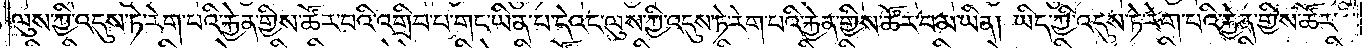ལུས་ཀྱི་འདུས་ཏེ་རེག་པའི་རྐྱེན་གྱིས་ཚོར་བའི་འགྲིབ་པ་གང་ཡིན་པ་དེའང་ལུས་ཀྱི་འདུས་ཏེ་རེག་པའི་རྐྱེན་གྱིས་ཚོར་བ་མ་ཡིན། ཡིད་ཀྱི་འདུས་ཏེ་རེག་པའི་རྐྱེན་གྱིས་ཚོར་
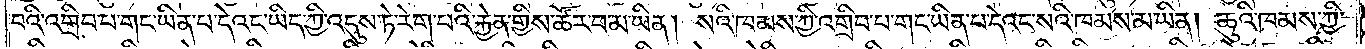བའི་འགྲིབ་པ་གང་ཡིན་པ་དེའང་ཡིད་ཀྱི་འདུས་ཏེ་རེག་པའི་རྐྱེན་གྱིས་ཚོར་བ་མ་ཡིན། སའི་ཁམས་ཀྱི་འགྲིབ་པ་གང་ཡིན་པ་དེའང་སའི་ཁམས་མ་ཡིན། ཆུའི་ཁམས་ཀྱི་
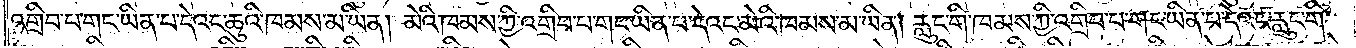འགྲིབ་པ་གང་ཡིན་པ་དེའང་ཆུའི་ཁམས་མ་ཡིན། མེའི་ཁམས་ཀྱི་འགྲིབ་པ་གང་ཡིན་པ་དེའང་མེའི་ཁམས་མ་ཡིན། རླུང་གི་ཁམས་ཀྱི་འགྲིབ་པ་གང་ཡིན་པ་དེའང་རླུང་གི་
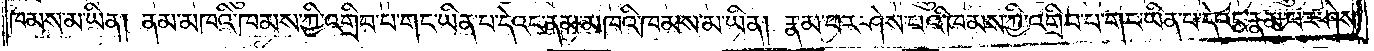ཁམས་མ་ཡིན། ནམ་མཁའི་ཁམས་ཀྱི་འགྲིབ་པ་གང་ཡིན་པ་དེའང་ནམ་མཁའི་ཁམས་མ་ཡིན། རྣམ་པར་ཤེས་པའི་ཁམས་ཀྱི་འགྲིབ་པ་གང་ཡིན་པ་དེའང་རྣམ་པར་ཤེས་
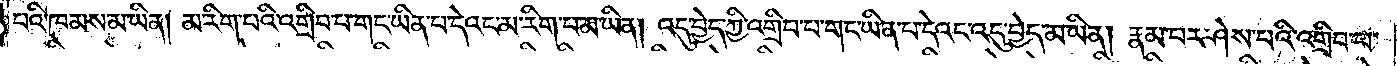པའི་ཁམས་མ་ཡིན། མ་རིག་པའི་འགྲིབ་པ་གང་ཡིན་པ་དེའང་མ་རིག་པ་མ་ཡིན། འདུ་བྱེད་ཀྱི་འགྲིབ་པ་གང་ཡིན་པ་དེའང་འདུ་བྱེད་མ་ཡིན། རྣམ་པར་ཤེས་པའི་འགྲིབ་པ་
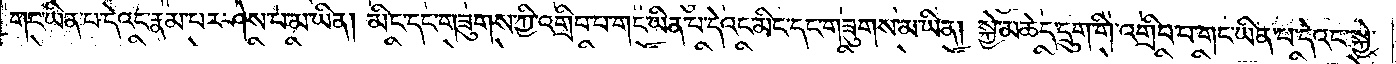གང་ཡིན་པ་དེའང་རྣམ་པར་ཤེས་པ་མ་ཡིན། མིང་དང་གཟུགས་ཀྱི་འགྲིབ་པ་གང་ཡིན་པ་དེའང་མིང་དང་གཟུགས་མ་ཡིན། སྐྱེ་མཆེད་དྲུག་གི་འགྲིབ་པ་གང་ཡིན་པ་དེའང་སྐྱེ་
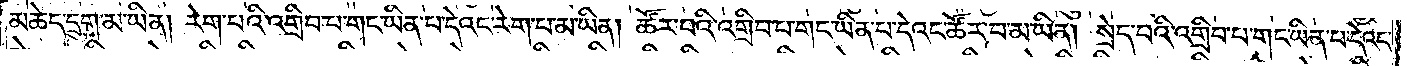མཆེད་དྲུག་མ་ཡིན། རེག་པའི་འགྲིབ་པ་གང་ཡིན་པ་དེའང་རེག་པ་མ་ཡིན། ཚོར་བའི་འགྲིབ་པ་གང་ཡིན་པ་དེའང་ཚོར་བ་མ་ཡིན། སྲེད་པའི་འགྲིབ་པ་གང་ཡིན་པ་དེའང་
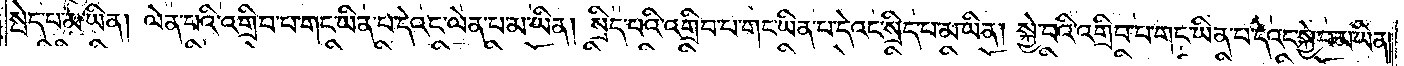སྲེད་པ་མ་ཡིན། ལེན་པའི་འགྲིབ་པ་གང་ཡིན་པ་དེའང་ལེན་པ་མ་ཡིན། སྲིད་པའི་འགྲིབ་པ་གང་ཡིན་པ་དེའང་སྲིད་པ་མ་ཡིན། སྐྱེ་བའི་འགྲིབ་པ་གང་ཡིན་པ་དེའང་སྐྱེ་བ་མ་ཡིན།
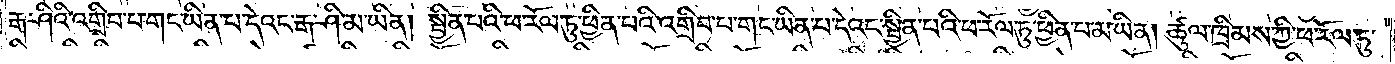རྒ་ཤིའི་འགྲིབ་པ་གང་ཡིན་པ་དེའང་རྒ་ཤི་མ་ཡིན། སྦྱིན་པའི་ཕ་རོལ་ཏུ་ཕྱིན་པའི་འགྲིབ་པ་གང་ཡིན་པ་དེའང་སྦྱིན་པའི་ཕ་རོལ་ཏུ་ཕྱིན་པ་མ་ཡིན། ཚུལ་ཁྲིམས་ཀྱི་ཕ་རོལ་ཏུ་
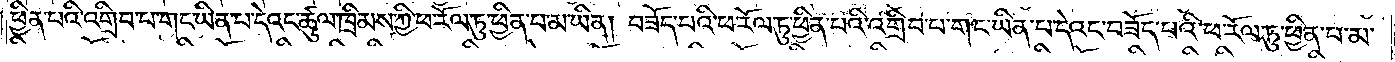ཕྱིན་པའི་འགྲིབ་པ་གང་ཡིན་པ་དེའང་ཚུལ་ཁྲིམས་ཀྱི་ཕ་རོལ་ཏུ་ཕྱིན་པ་མ་ཡིན། བཟོད་པའི་ཕ་རོལ་ཏུ་ཕྱིན་པའི་འགྲིབ་པ་གང་ཡིན་པ་དེའང་བཟོད་པའི་ཕ་རོལ་ཏུ་ཕྱིན་པ་མ་
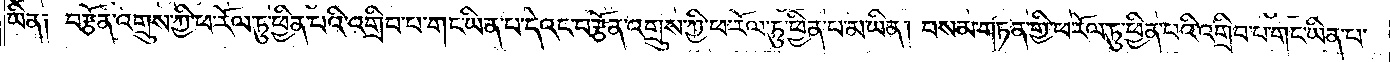ཡིན། བརྩོན་འགྲུས་ཀྱི་ཕ་རོལ་ཏུ་ཕྱིན་པའི་འགྲིབ་པ་གང་ཡིན་པ་དེའང་བརྩོན་འགྲུས་ཀྱི་ཕ་རོལ་ཏུ་ཕྱིན་པ་མ་ཡིན། བསམ་གཏན་གྱི་ཕ་རོལ་ཏུ་ཕྱིན་པའི་འགྲིབ་པ་གང་ཡིན་པ་
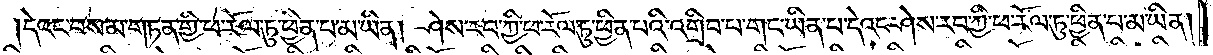དེའང་བསམ་གཏན་གྱི་ཕ་རོལ་ཏུ་ཕྱིན་པ་མ་ཡིན། ཤེས་རབ་ཀྱི་ཕ་རོལ་ཏུ་ཕྱིན་པའི་འགྲིབ་པ་གང་ཡིན་པ་དེའང་ཤེས་རབ་ཀྱི་ཕ་རོལ་ཏུ་ཕྱིན་པ་མ་ཡིན།
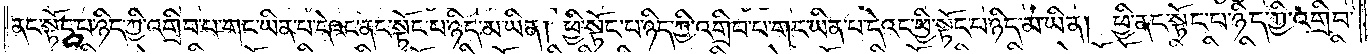ནང་སྟོང་པ་ཉིད་ཀྱི་འགྲིབ་པ་གང་ཡིན་པ་དེའང་ནང་སྟོང་པ་ཉིད་མ་ཡིན། ཕྱི་སྟོང་པ་ཉིད་ཀྱི་འགྲིབ་པ་གང་ཡིན་པ་དེའང་ཕྱི་སྟོང་པ་ཉིད་མ་ཡིན། ཕྱི་ནང་སྟོང་པ་ཉིད་ཀྱི་འགྲིབ་
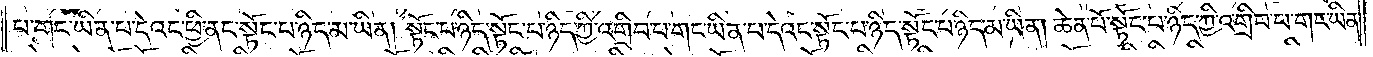པ་གང་ཡིན་པ་དེའང་ཕྱི་ནང་སྟོང་པ་ཉིད་མ་ཡིན། སྟོང་པ་ཉིད་སྟོང་པ་ཉིད་ཀྱི་འགྲིབ་པ་གང་ཡིན་པ་དེའང་སྟོང་པ་ཉིད་སྟོང་པ་ཉིད་མ་ཡིན། ཆེན་པོ་སྟོང་པ་ཉིད་ཀྱི་འགྲིབ་པ་གང་ཡིན་
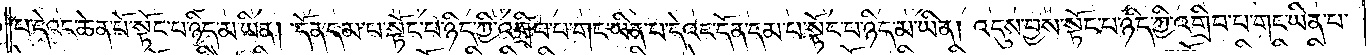པ་དེའང་ཆེན་པོ་སྟོང་པ་ཉིད་མ་ཡིན། དོན་དམ་པ་སྟོང་པ་ཉིད་ཀྱི་འགྲིབ་པ་གང་ཡིན་པ་དེའང་དོན་དམ་པ་སྟོང་པ་ཉིད་མ་ཡིན། འདུས་བྱས་སྟོང་པ་ཉིད་ཀྱི་འགྲིབ་པ་གང་ཡིན་པ་
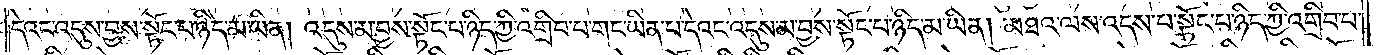དེའང་འདུས་བྱས་སྟོང་པ་ཉིད་མ་ཡིན། འདུས་མ་བྱས་སྟོང་པ་ཉིད་ཀྱི་འགྲིབ་པ་གང་ཡིན་པ་དེའང་འདུས་མ་བྱས་སྟོང་པ་ཉིད་མ་ཡིན། མཐའ་ལས་འདས་པ་སྟོང་པ་ཉིད་ཀྱི་འགྲིབ་པ་
